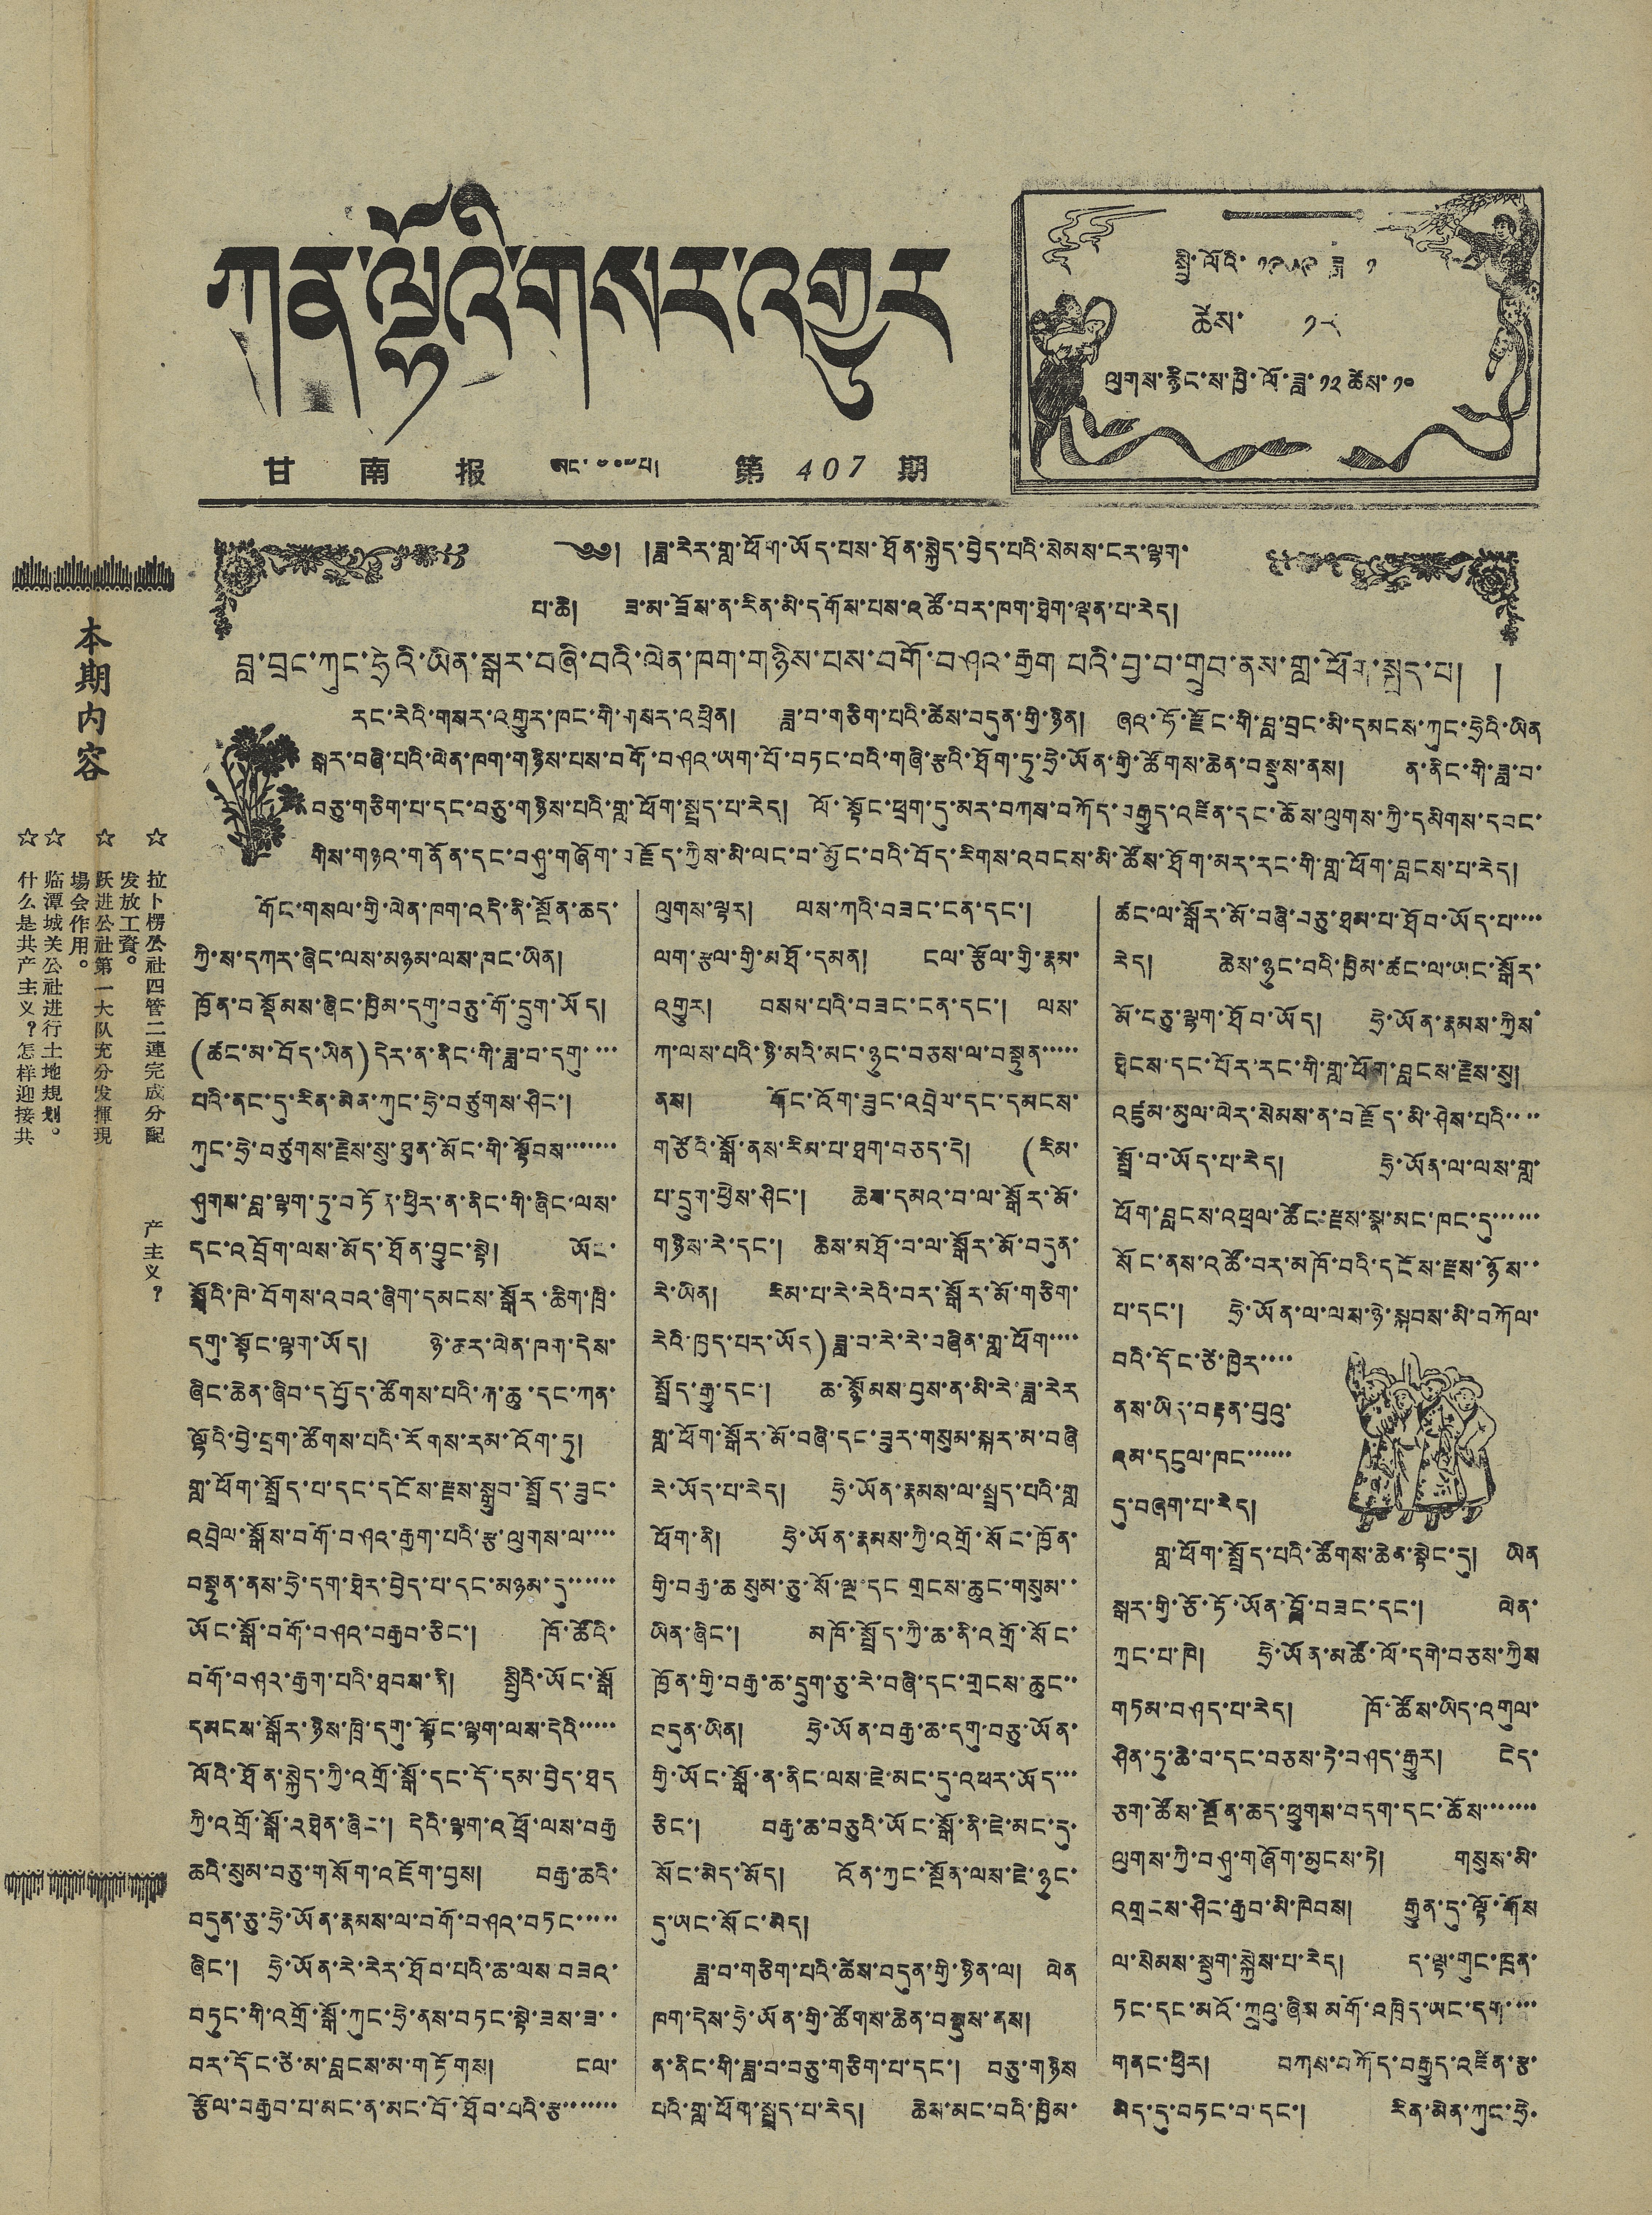ཀན་ལྷོའི་གསར་འགྱུར
甘 南 报 ཨང་ ༤༠༧ པ། 第 407 期
སྤྱི་ལོའི་ ༡༩༥༩ ཟླ་ ༡
ཚེས་ ༡༨
ལུགས་རྙིང་ས་ཁྱི་ལོ་ཟླ་ ༡༢ ཚེས་ ༡༠
本期內容
☆ 拉卜楞公社四管二連完成分配
发放工資。
☆ 跃进公社第一大队充分发揮現
場会作用。
☆ 临潭城关公社进行土地規划。
☆ 什么是共产主义？怎样迎接共
产主义？
༄༅། །ཟླ་རེར་གླ་ཕོག་ཡོད་པས་ཐོན་སྐྱེད་བྱེད་པའི་སེམས་ངར་ལྷག་
པ་ཚེ། ཟ་མ་ཟོས་ན་རིན་མི་དགོས་པས་འཚོ་བར་ཁག་ཐིག་ལྡན་པ་རེད།
བླ་བྲང་ཀུང་ཧྲེའི་ཡིན་སྒར་བཞི་བའི་ལེན་ཁག་གཉིས་པས་བགོ་བཤའ་རྒྱག པའི་བྱ་བ་གྲུབ་ནས་གླ་ཕོག་སྤྲད་པ། །
རང་རེའི་གསར་འགྱུར་ཁང་གི་གསར་འཕྲིན། ཟླ་བ་གཅིག་པའི་ཚེས་བདུན་གྱི་ཉིན། ཞའ་ཧོ་རྫོང་གི་བླ་བྲང་མི་དམངས་ཀུང་ཧྲེའི་ཡིན
སྒར་བཞི་པའི་ལེན་ཁག་གཉིས་པས་བགོ་བཤའ་ཡག་པོ་བཏང་བའི་གཞི་རྩའི་ཐོག་ཏུ་ཧྲེ་ཡོན་གྱི་ཚོགས་ཆེན་བསྡུས་ནས། ན་ནིང་གི་ཟླ་བ་
བཅུ་གཅིག་པ་དང་བཅུ་གཉིས་པའི་གླ་ཕོག་སྤྲད་པ་རེད། ལོ་སྟོང་ཕྲག་དུ་མར་བཀས་བཀོད་བརྒྱུད་འཛིན་དང་ཆོས་ལུགས་ཀྱི་དམིགས་དབང་
གིས་གཉའ་གནོན་དང་བཤུ་གཞོག་བརྗོད་ཀྱིས་མི་ལང་བ་མྱོང་བའི་བོད་རིགས་འབངས་མི་ཚོས་ཐོག་མར་རང་གི་བླ་ཕོག་བླངས་པ་རེད།
གོང་གསལ་གྱི་ལེན་ཁག་འདི་ནི་སྔོན་ཆད་
ཀྱི་ས་དཀར་ཞིང་ལས་མཉམ་ལས་ཁང་ཡིན།
ཁྱོན་བསྡོམས་ཞིང་ཁྱིམ་དགུ་བཅུ་གོ་དྲུག་ཡོད།
(ཚང་མ་བོད་ཡིན) དེར་ན་ནིང་གི་ཟླ་བ་དགུ་་་་
པའི་ནང་དུ་རིན་མེན་ཀུང་ཧྲེ་བཙུགས་ཤིང་།
ཀུང་ཧྲེ་བཙུགས་རྗེས་སུ་ཐུན་མོང་གི་སྟོབས་་་་་་་
ཤུགས་བླ་ལྷག་ཏུ་བཏོན་ཕྱིར་ན་ནིང་གི་ཞིང་ལས་
དང་འབྲོག་ལས་མོད་ཐོན་བྱུང་སྟེ། ཡོང་
སྒོའི་ཁེ་བོགས་འབའ་ཞིག་དམངས་སྒོར་ཆིག་ཁྲི་
དགུ་སྟོང་ལྷག་ཡོད། ཉེ་ཆར་ལེན་ཁག་དེས་
ཞིང་ཆེན་ཞིབ་དཔྱོད་ཚོགས་པའི་རྐ་ཆུ་དང་ཀན་
ལྷོའི་བྱེ་བྲག་ཚོགས་པའི་རོགས་རམ་འོག་ཏུ།
གླ་ཕོག་སྤྲོད་པ་དང་དངོས་རྫས་སྒྲུབ་སྤྲོད་ཟུང་
འབྲེལ་སྒོས་བགོ་བཤའ་རྒྱག་པའི་རྩ་ལུགས་ལ་་་་
བསྟུན་ནས་ཧྲེ་དག་ཐེར་བྱེད་པ་དང་མཉམ་དུ་་་་་་
ཡོང་སྒོ་བགོ་བཤའ་བརྒྱབ་ཅིང་། ཁོ་ཚོའི་
བགོ་བཤའ་རྒྱག་པའི་ཐབས་ནི། སྤྱིའི་ཡོང་སྒོ
དམངས་སྒོར་ཉིས་ཁྲི་དགུ་སྟོང་ལྷག་ལས་དེའི་་་་་
ལོའི་ཐོན་སྐྱེད་ཀྱི་འགྲོ་སྒོ་དང་དོ་དམ་བྱེད་ཐད
ཀྱི་འགྲོ་སྒོ་འཐེན་ཞིང་། དེའི་ལྷག་འཕྲོ་ལས་བརྒྱ
ཆའི་སུམ་བཅུ་གསོག་འཇོག་བྱས། བརྒྱ་ཆའི་
བདུན་ཅུ་ཧྲེ་ཡོན་རྣམས་ལ་བགོ་བཤའ་བཏང་་་་་
ཞིང་། ཧྲེ་ཡོན་རེ་རེར་ཐོབ་པའི་ཆ་ལས་བཟའ་
བཏུང་གི་འགྲོ་སྒོ་ཀུང་ཧྲེ་ནས་བཏང་སྟེ་ཟས་ཟ་་
བར་དོང་ཙེ་མ་བླངས་མ་གཏོགས། ངལ་
རྩོལ་བརྒྱབ་པ་མང་ན་མང་བོ་ཐོབ་པའི་རྩ་་་་་་་
ལུགས་ལྟར། ལས་ཀའི་བཟང་ངན་དང་།
ལག་རྩལ་གྱི་མཐོ་དམན། ངལ་རྩོལ་གྱི་རྣམ་
འགྱུར། བསམ་པའི་བཟང་ངན་དང་། ལས་
ཀ་ལས་པའི་ཉི་མའི་མང་ཉུང་བཅས་ལ་བསྟུན་་་་་
ནས། གོང་འོག་ཟུང་འབྲེལ་དང་དམངས་
གཙོའི་སྒོ་ནས་རིམ་པ་ཐག་བཅད་དེ། (རིམ་
པ་དྲུག་ཕྱེས་ཤིང་། ཆེས་དམའ་བ་ལ་སྒོར་མོ་
གཉིས་རེ་དང་། ཆེས་མཐོ་བ་ལ་སྒོར་མོ་བདུན་
རེ་ཡིན། རིམ་པ་རེ་རེའི་བར་སྒོར་མོ་གཅིག་
རེའི་ཁྱད་པར་ཡོད) ཟླ་བ་རེ་རེ་བཞིན་གླ་ཕོག་་་་
སྤྲོད་རྒྱུ་དང་། ཆ་སྙོམས་བྱས་ན་མི་རེ་ཟླ་རེར
གླ་ཕོག་སྒོར་མོ་བཞི་དང་ཟུར་གསུམ་སྐར་མ་བཞི
རེ་ཡོད་པ་རེད། ཧྲེ་ཡོན་རྣམས་ལ་སྤྲད་པའི་གླ
ཕོག་ནི། ཧྲེ་ཡོན་རྣམས་ཀྱི་འགྲོ་སོང་ཁྱོན་
གྱི་བརྒྱ་ཆ སུམ་ཅུ་སོ་ལྔ་དང གྲངས་ཆུང་གསུམ་་
ཡིན་ཞིང་། མཁོ་སྤྲོད་ཀྱི་ཆ་ནི་འགྲོ་སོང་
ཁྱོན་གྱི་བརྒྱ་ཆ་དྲུག་ཅུ་རེ་བཞི་དང་གྲངས་ཆུང་་
བདུན་ཡིན། ཧྲེ་ཡོན་བརྒྱ་ཆ་དགུ་བཅུ་ཡོན་
གྱི་ཡོང་སྒོ་ན་ནིང་ལས་ཇེ་མང་དུ་འཕར་ཡོད་་་
ཅིང་། བརྒྱ་ཆ་བཅུའི་ཡོང་སྒོ་ནི་ཇེ་མང་དུ་
སོང་མེད་མོད། འོན་ཀྱང་སྔོན་ལས་ཇེ་ཉུང་
དུ་ཡང་སོང་མེད།
ཟླ་བ་གཅིག་པའི་ཚེས་བདུན་གྱི་ཉིན་ལ། ལེན
ཁག་དེས་ཧྲེ་ཡོན་གྱི་ཚོགས་ཆེན་བསྡུས་ནས།
ན་ནིང་གི་ཟླ་བ་བཅུ་གཅིག་པ་དང་། བཅུ་གཉིས
པའི་གླ་ཕོག་སྤྲད་པ་རེད། ཆེས་མང་བའི་ཁྱིམ་
ཚང་ལ་སྒོར་མོ་བཞི་བཅུ་ཐམ་པ་ཐོབ་ཡོད་པ་་་་
རེད། ཆེས་ཉུང་བའི་ཁྱིམ་ཚང་ལ་ཡང་སྒོར་
མོ་བཅུ་ལྷག་ཐོབ་ཡོད། ཧྲེ་ཡོན་རྣམས་ཀྱིས་
ཐེངས་དང་པོར་རང་གི་གླ་ཕོག་བླངས་རྗེས་སུ།
འཛུམ་མུལ་ལེར་སེམས་ན་བརྗོད་མི་ཤེས་པའི་་་་
སྤྲོ་བ་ཡོད་པ་རེད། ཧྲེ་ཡོན་ལ་ལས་གླ་
ཕོག་བླངས་འཕྲལ་ཚོང་རྫས་སྣ་མང་ཁང་དུ་་་་་་
སོང་ནས་འཚོ་བར་མཁོ་བའི་དངོས་རྫས་ཉོས་་
པ་དང་། ཧྲེ་ཡོན་ལ་ལས་ཉེ་སྐབས་མི་བཀོལ་
བའི་དོང་ཙེ་ཁྱེར་་་་
ནས་ཡིད་བརྟན་པུའུ་
འམ་དངུལ་ཁང་་་་་་
དུ་བཞག་པ་རེད།
གླ་ཕོག་སྤྲོད་པའི་ཚོགས་ཆེན་སྟེང་དུ། ཡིན་
སྒར་གྱི་ཅོ་ཏོ་ཡོན་བློ་བཟང་དང་། ལེན་
ཀྲང་པ་ཁེ། ཧྲེ་ཡོན་མཚོ་ལོ་དགེ་བཅས་ཀྱིས
གཏམ་བཤད་པ་རེད། ཁོ་ཚོས་ཡིད་འགུལ་
ཤིན་ཏུ་ཆེ་བ་དང་བཅས་ཏེ་བཤད་རྒྱུར། ངེད་
ཅག་ཚོས་སྔོན་ཆད་ཕྱུགས་བདག་དང་ཆོས་་་་་་་
ལུགས་ཀྱི་བཤུ་གཞོག་མྱངས་ཏེ། གསུས་མི་
འགྲངས་ཤིང་རྒྱབ་མི་ཁེབས། རྒྱུན་དུ་ལྟོ་གོས
ལ་སེམས་སྡུག་སྐྱེས་པ་རེད། ད་ལྟ་གུང་ཁྲན་
ཏང་དང་མའོ་ཀྲུའུ་ཞིས་མགོ་འཁྲིད་ཡང་དག་་་་
གནང་ཕྱིར། བཀས་བཀོད་བརྒྱུད་འཛིན་རྩ་
མིད་དུ་བཏང་བ་དང་། རིན་མེན་ཀུང་ཧྲེ་
